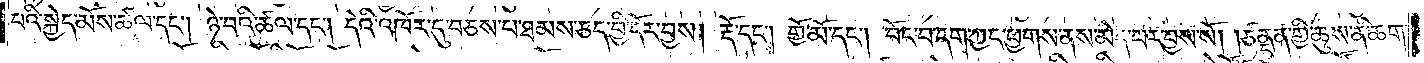པའི་སྐྱེད་མོས་ཚལ་དང༌། ཉེ་བའི་ཚལ་དང༌། དེའི་འཁོར་དུ་བཅས་པ་ཐམས་ཅད་བྱི་དོར་བྱས། རྡོ་དང༌། གྱོ་མོ་དང༌། བོང་བདག་ཀྱང་ཕྱགས་ནས་མེད་པར་བྱས་སོ། །ཙནྡན་གྱི་ཆུས་ནི་ཆག་
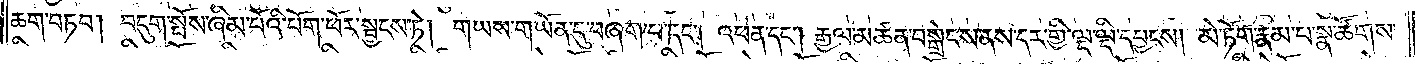ཆག་བཏབ། བདུག་སྤོས་ཞིམ་པོའི་པོག་ཕོར་སྦྱངས་ཏེ། གཡས་གཡོན་དུ་བཞག་པ་དང༌། འཕན་དང༌། རྒྱལ་མཚན་བསྒྲེངས་ནས་དར་གྱི་ལྔ་ལྡི་དབྱངས། མེ་ཏོག་རྣམ་པ་སྣ་ཚོགས་
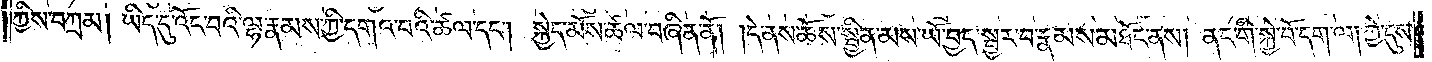ཀྱིས་བཀྲམ། ཡིད་དུ་འོང་བའི་ལྷ་རྣམས་ཀྱི་དགའ་བའི་ཚལ་དང༌། སྐྱེད་མོས་ཚལ་བཞིན་ནོ། །དེ་ནས་ཆོས་སྦྱིན་མས་ཡོ་བྱད་སྦྱར་བ་རྣམས་མཐོང་ནས། ནང་གི་སྐྱེ་བོ་དག་ལ། ཀྱེ་དུས་
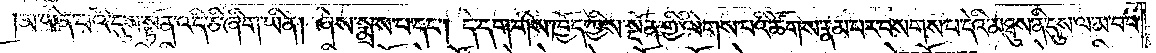མ་ཡིན་པའི་དུས་སྟོན་འདི་ཅི་ཞིག་ཡིན། ཞེས་སྨྲས་པ་དང༌། དེ་དག་གིས་ཁྱོད་ཀྱིས་སྔོན་གྱི་ལེགས་པའི་ཚོགས་རྣམ་པར་བསགས་པ་དེའི་མཐུས་ནི་དུས་ལ་མ་བབ་
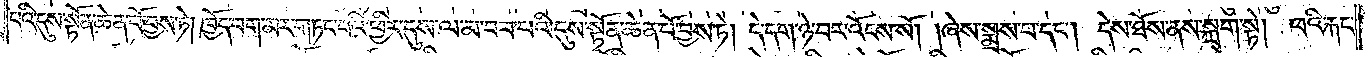པའི་དུས་སྟོན་ཆེན་པོ་བྱས་ཏེ། ཁྱོད་བག་མར་གཏང་བའི་ཕྱིར་དུས་ལ་མ་བབ་པའི་དུས་སྟོན་ཆེན་པོ་བྱས་ཏེ། དེ་དག་ཉེ་བར་འོངས་སོ། །ཞེས་སྨྲས་པ་དང༌། དེས་ཐོས་ནས་སྐྲག་སྟེ། ཕའི་རྐང་
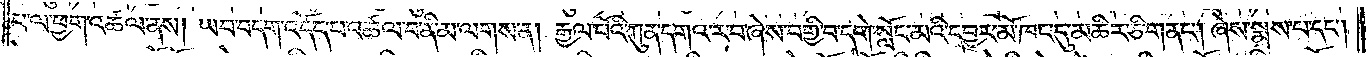པ་ལ་ཕྱག་འཚལ་ནས། ཡབ་བདག་འདོད་པ་འཚལ་བ་ནི་མ་ལགས་ན། རྒྱལ་པོའི་ཀུན་དགའ་ར་བ་ཞེས་བགྱི་བ་དགེ་སློང་མའི་དབྱར་མོ་ཁང་དུ་མཆིར་ཅི་གནང༌། ཞེས་སྨྲས་པ་དང༌།
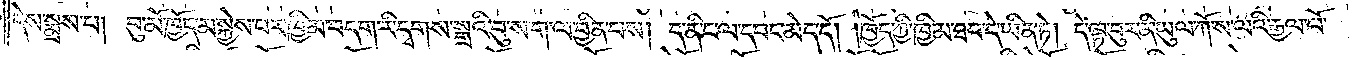དེས་སྨྲས་པ། བུ་མོ་ཁྱོད་མ་སྐྱེས་པར་ཁྱིམ་བདག་རི་དྭགས་སྒྲའི་བུ་ས་ག་ལ་བྱིན་པས། ད་ནི་ང་ལ་དབང་མེད་དོ། །ཁྱོད་ཀྱི་ཁྱིམ་ཐབ་དེ་ཡིན་ཏེ། དེ་ལྟ་བུར་ནི་ཡུལ་ཀོ་ས་ལའི་རྒྱལ་པོ་
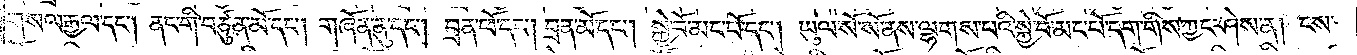གསལ་རྒྱལ་དང༌། ནང་གི་བཙུན་མོ་དང༌། གཞོན་ནུ་དང༌། བྲན་ཕོ་དང༌། བྲན་མོ་དང༌། སྐྱེ་བོ་མང་པོ་དང༌། ཡུལ་སོ་སོ་ནས་ལྷགས་པའི་སྐྱེ་བོ་མང་པོ་དག་གིས་ཀྱང་ཤེས་ན། ངས་
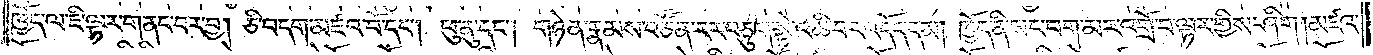ཁྱོད་ལ་ཇི་ལྟར་གནང་བར་བྱ། ཅི་བདག་མཛའ་བོ་དང༌། ཕུ་ནུ་དང༌། གཉེན་རྣམས་བཙོན་རར་བཅུག་སྟེ་འཆི་བར་འདོད་དམ། ཁྱོད་ནི་སང་བག་མར་འགྲོ་བ་ལྟར་གྱིས་ཤིག །མཛའ་
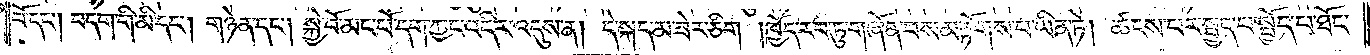བོ་དང༌། བདག་གི་མི་དང༌། གཉེན་དང༌། སྐྱེ་བོ་མང་པོ་དག་ཀྱང་འདིར་འདུས་ན། དེ་སྐད་མ་ཟེར་ཅིག །ཁྱོད་རབ་ཏུ་གཞོན་བས་མ་རྟོགས་པ་ཡིན་ཏེ། ཚངས་པར་སྤྱད་པ་སྤྱོད་པ་ཐོང་
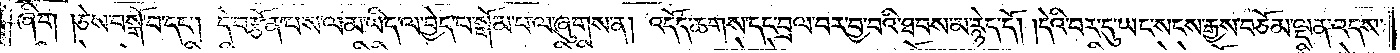ཞིག །ཅེས་བསྒོ་བ་དང༌། དེ་བརྩོན་པས་ལམ་ཡིད་ལ་བྱེད་པ་སྒོམ་པ་ལ་ཞུགས་ན། འདོད་ཆགས་དང་བྲལ་བར་བྱ་བའི་ཐབས་མ་རྙེད་དོ། །དེའི་བར་དུ་ཡང་སངས་རྒྱས་བཅོམ་ལྡན་འདས་
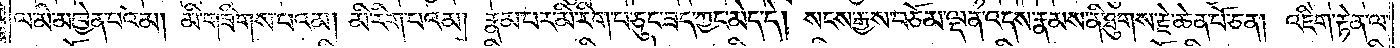ལ་མི་མཁྱེན་པའམ། མི་གཟིགས་པའམ། མི་རིག་པའམ། རྣམ་པར་མི་རིག་པ་ཅུང་ཟད་ཀྱང་མེད་དེ། སངས་རྒྱས་བཅོམ་ལྡན་འདས་རྣམས་ནི་ཐུགས་རྗེ་ཆེན་པོ་ཅན། འཇིག་རྟེན་ལ་
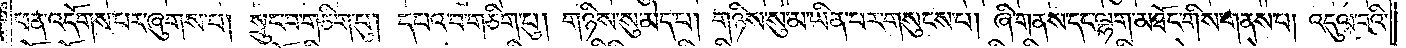ཕན་འདོགས་པར་ཞུགས་པ། སྲུང་བ་གཅིག་པུ། དཔའ་བ་གཅིག་པུ། གཉིས་སུ་མེད་པ། གཉིས་སུ་མ་ཡིན་པར་གསུངས་པ། ཞི་གནས་དང་ལྷག་མཐོང་གིས་གནས་པ། འདུལ་བའི་
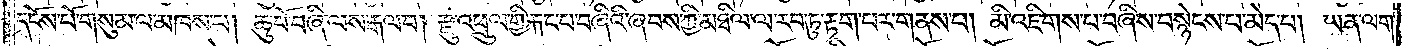དངོས་པོ་གསུམ་ལ་མཁས་པ། ཆུ་བོ་བཞི་ལས་རྒལ་བ། རྫུ་འཕྲུལ་གྱི་རྐང་པ་བཞིའི་ཞབས་ཀྱི་མཐིལ་ལ་རབ་ཏུ་རྟག་པར་གནས་པ། མི་འཇིགས་པ་བཞིས་བསྙེངས་པ་མེད་པ། ཡན་ལག་
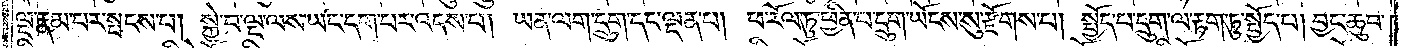ལྔ་རྣམ་པར་སྤངས་པ། སྐྱེ་བ་ལྔ་ལས་ཡང་དག་པར་འདས་པ། ཡན་ལག་དྲུག་དང་ལྡན་པ། ཕ་རོལ་ཏུ་ཕྱིན་པ་དྲུག་ཡོངས་སུ་རྫོགས་པ། སྤྱོད་པ་དྲུག་ལ་རྟག་ཏུ་སྤྱོད་པ། བྱང་ཆུབ་
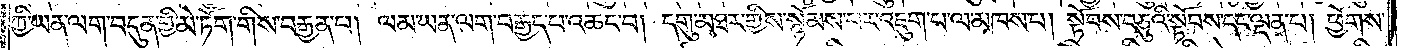ཀྱི་ཡན་ལག་བདུན་གྱི་མེ་ཏོག་གིས་བརྒྱན་པ། ལམ་ཡན་ལག་བརྒྱད་པ་འཆང་བ། དགུ་མཐར་གྱིས་སྙོམས་པར་འཇུག་པ་ལ་མཁས་པ། སྟོབས་བཅུའི་སྟོབས་དང་ལྡན་པ། ཕྱོགས་
